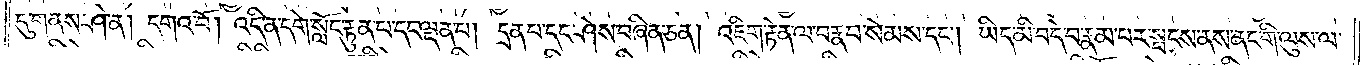དུ་གནས་ཤེ་ན། དགའ་བོ། འདི་ན་དགེ་སློང་རྟུན་པ་དང་ལྡན་པ། དྲན་པ་དང་ཤེས་བཞིན་ཅན། འཇིག་རྟེན་ལ་བརྣབ་སེམས་དང༌། ཡིད་མི་བདེ་བ་རྣམ་པར་སྤངས་ནས་ནང་གི་ལུས་ལ་
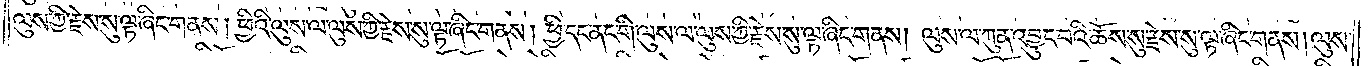ལུས་ཀྱི་རྗེས་སུ་ལྟ་ཞིང་གནས། ཕྱིའི་ལུས་ལ་ལུས་ཀྱི་རྗེས་སུ་ལྟ་ཞིང་གནས། ཕྱི་དང་ནང་གི་ལུས་ལ་ལུས་ཀྱི་རྗེས་སུ་ལྟ་ཞིང་གནས། ལུས་ལ་ཀུན་འབྱུང་བའི་ཆོས་སུ་རྗེས་སུ་ལྟ་ཞིང་གནས། ལུས་
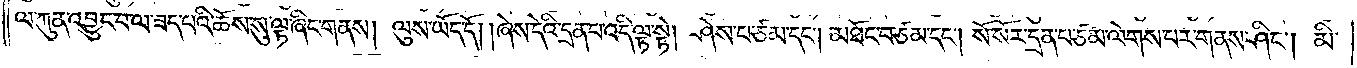ལ་ཀུན་འབྱུང་བ་ལ་ཟད་པའི་ཆོས་སུ་ལྟ་ཞིང་གནས། ལུས་ཡོད་དོ། །ཞེས་དེའི་དྲན་པ་འདི་ལྟ་སྟེ། ཤེས་པ་ཙམ་དང༌། མཐོང་བ་ཙམ་དང༌། སོ་སོར་དྲན་པ་ཙམ་ལེགས་པར་གནས་ཤིང༌། མི་
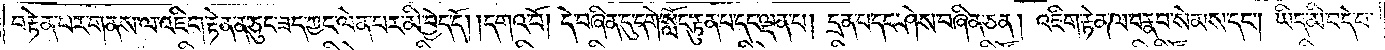བརྟེན་པར་གནས་ལ་འཇིག་རྟེན་ན་ཅུང་ཟད་ཀྱང་ལེན་པར་མི་བྱེད་དོ། །དགའ་བོ། དེ་བཞིན་དུ་དགེ་སློང་རྟུན་པ་དང་ལྡན་པ། དྲན་པ་དང་ཤེས་བཞིན་ཅན། འཇིག་རྟེན་ལ་བརྣབ་སེམས་དང༌། ཡིད་མི་བདེ་བ་
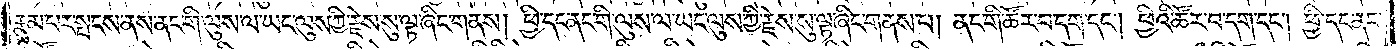རྣམ་པར་སྤངས་ནས་ནང་གི་ལུས་ལ་ཡང་ལུས་ཀྱི་རྗེས་སུ་ལྟ་ཞིང་གནས། ཕྱི་དང་ནང་གི་ལུས་ལ་ཡང་ལུས་ཀྱི་རྗེས་སུ་ལྟ་ཞིང་གནས་པ། ནང་གི་ཚོར་བ་དག་དང༌། ཕྱིའི་ཚོར་བ་དག་དང༌། ཕྱི་དང་ནང་
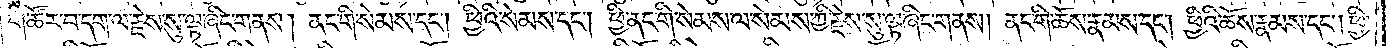གི་ཚོར་བ་དག་ལ་རྗེས་སུ་ལྟ་ཞིང་གནས། ནང་གི་སེམས་དང༌། ཕྱིའི་སེམས་དང༌། ཕྱི་ནང་གི་སེམས་ལ་སེམས་ཀྱི་རྗེས་སུ་ལྟ་ཞིང་གནས། ནང་གི་ཆོས་རྣམས་དང༌། ཕྱིའི་ཆོས་རྣམས་དང༌། ཕྱི་
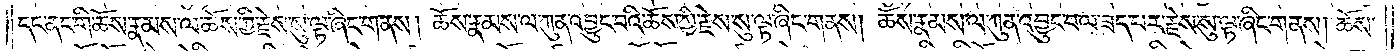དང་ནང་གི་ཆོས་རྣམས་ལ་ཆོས་ཀྱི་རྗེས་སུ་ལྟ་ཞིང་གནས། ཆོས་རྣམས་ལ་ཀུན་འབྱུང་བའི་ཆོས་ཀྱི་རྗེས་སུ་ལྟ་ཞིང་གནས། ཆོས་རྣམས་ལ་ཀུན་འབྱུང་བ་ལ་ཟད་པར་རྗེས་སུ་ལྟ་ཞིང་གནས། ཆོས་
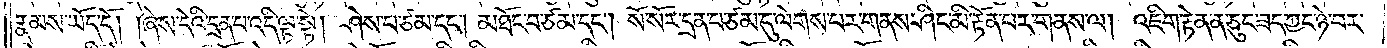རྣམས་ཡོད་དོ། །ཞེས་དེའི་དྲན་པ་འདི་ལྟ་སྟེ། ཤེས་པ་ཙམ་དང༌། མཐོང་བ་ཙམ་དང༌། སོ་སོར་དྲན་པ་ཙམ་དུ་ལེགས་པར་གནས་ཤིང་མི་རྟོན་པར་གནས་ལ། འཇིག་རྟེན་ན་ཅུང་ཟད་ཀྱང་ཉེ་བར་
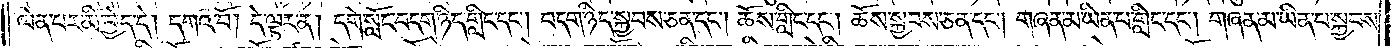ལེན་པར་མི་བྱེད་དེ། དགའ་བོ། དེ་ལྟར་ན། དགེ་སློང་བདག་ཉིད་གླིང་དང༌། བདག་ཉིད་སྐྱབས་ཅན་དང༌། ཆོས་གླིང་དང༌། ཆོས་སྐྱབས་ཅན་དང༌། གཞན་མ་ཡིན་པ་གླིང་དང༌། གཞན་མ་ཡིན་པ་སྐྱབས་
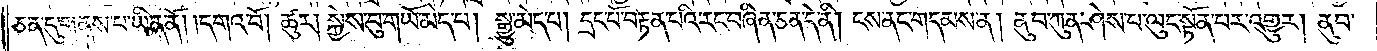ཅན་དུ་གནས་པ་ཡིན་ནོ། །དགའ་བོ། ཚུར། སྐྱེས་བུ་གཡོ་མེད་པ། སྒྱུ་མེད་པ། དྲང་པོ་བརྟན་པའི་རང་བཞིན་ཅན་དེ་ནི། ངས་ནང་གདམས་ན། ནུབ་ཀུན་ཤེས་པ་ལུང་སྟོན་པར་འགྱུར། ནུབ་
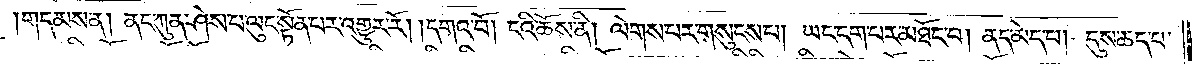གདམས་ན། ནང་ཀུན་ཤེས་པ་ལུང་སྟོན་པར་འགྱུར་རོ། །དགའ་བོ། ངའི་ཆོས་ནི། ལེགས་པར་གསུངས་པ། ཡང་དག་པར་མཐོང་བ། ནད་མེད་པ། དུས་ཆད་པ་
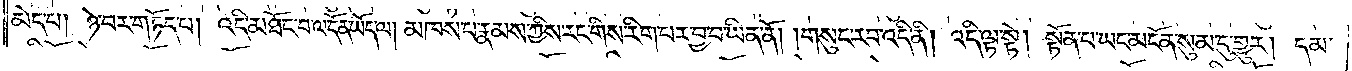མེད་པ། ཉེ་བར་གཏོད་པ། འདི་མཐོང་བ་ལ་དོན་ཡོད་ལ། མཁས་པ་རྣམས་ཀྱིས་རང་གིས་རིག་པར་བྱ་བ་ཡིན་ནོ། །གསུང་རབ་འདི་ནི། འདི་ལྟ་སྟེ། སྟོན་པ་ཡང་མངོན་སུམ་དུ་གྱུར། དམ་
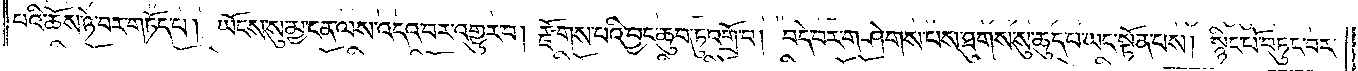པའི་ཆོས་ཉེ་བར་གཏོད་པ། ཡོངས་སུ་མྱ་ངན་ལས་འདའ་བར་འགྱུར་བ། རྫོགས་པའི་བྱང་ཆུབ་ཏུ་འགྲོ་བ། བདེ་བར་གཤེགས་པས་ཐུགས་སུ་ཆུད་པ་ཡང་སྟོན་པས། སྙིང་པོ་བཏུང་བར་
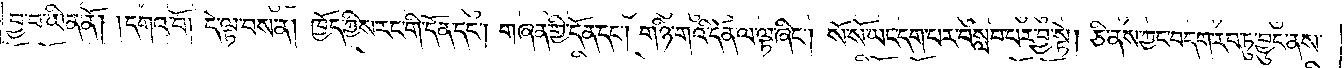བྱ་བ་ཡིན་ནོ། །དགའ་བོ། དེ་ལྟ་བས་ན། ཁྱོད་ཀྱིས་རང་གི་དོན་དང༌། གཞན་གྱི་དོན་དང༌། གཉི་གའི་དོན་ལ་ལྟ་ཞིང༌། སོ་སོ་ཡང་དག་པར་བསླབ་པར་བྱ་སྟེ། ཅི་ནས་ཀྱང་བདག་རབ་ཏུ་བྱུང་ནས་
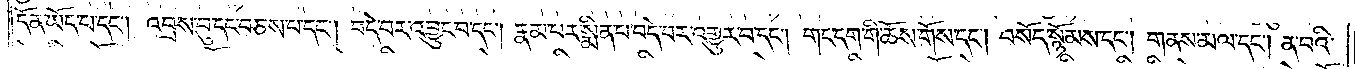དོན་ཡོད་པ་དང༌། འབྲས་བུ་དང་བཅས་པ་དང༌། བདེ་བར་འབྱུང་བ་དང༌། རྣམ་པར་སྨིན་པ་བདེ་བར་འགྱུར་བ་དང༌། གང་དག་གི་ཆོས་གོས་དང༌། བསོད་སྙོམས་དང༌། གནས་མལ་དང༌། ན་བའི་
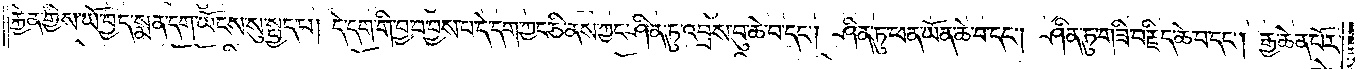རྐྱེན་གྱིས་ཡོ་བྱད་སྨན་དག་ཡོངས་སུ་སྤྱད་པ། དེ་དག་གི་བྱ་བ་བྱས་པ་དེ་དག་ཀྱང་ཅི་ནས་ཀྱང་ཤིན་ཏུ་འབྲས་བུ་ཆེ་བ་དང༌། ཤིན་ཏུ་ཕན་ཡོན་ཆེ་བ་དང༌། ཤིན་ཏུ་གཟི་བརྗིད་ཆེ་བ་དང༌། རྒྱ་ཆེན་པོར་
